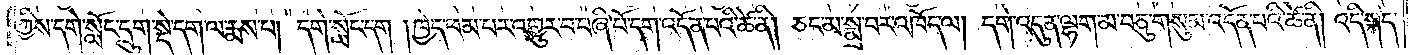ཀྱིས་དགེ་སློང་དྲུག་སྡེ་དག་ལ་རྨས་པ། དགེ་སློང་དག །ཁྱེད་ཕམ་པར་འགྱུར་བ་བཞི་པོ་དག་འདོན་པའི་ཚེ་ནི། ཅང་མ་སྨྲ་བར་འཁོད་ལ། དགེ་འདུན་ལྷག་མ་བཅུ་གསུམ་འདོན་པའི་ཚེ་ནི། འདི་སྐད་
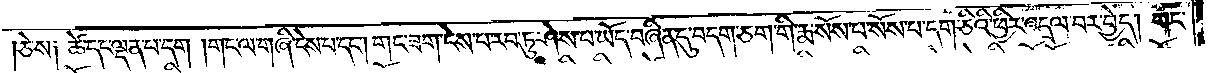ཅེས། ཚེ་དང་ལྡན་པ་དག །གང་ལ་གཞི་ངེས་པ་དང༌། གང་ཟག་ངེས་པ་རབ་ཏུ་ཤེས་པ་ཡོད་བཞིན་དུ་བདག་ཅག་གི་རྨ་སོས་པ་སོས་པ་དག་ཅིའི་ཕྱིར་འདྲལ་བར་བྱེད། གང་
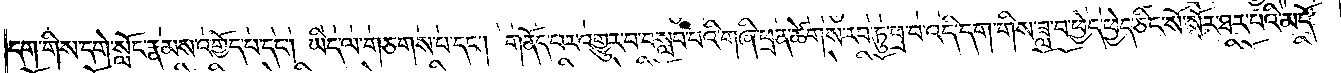དག་གིས་དགེ་སློང་རྣམས་འགྱོད་པ་དང༌། ཡིད་ལ་གཅགས་པ་དང༌། གནོད་པར་འགྱུར་བ་བསླབ་པའི་གཞི་ཕྲན་ཚེགས་རབ་ཏུ་ཕྲ་བ་འདི་དག་གིས་ཟླ་བ་ཕྱེད་ཕྱེད་ཅིང་སོ་སོར་ཐར་པའི་མདོ་
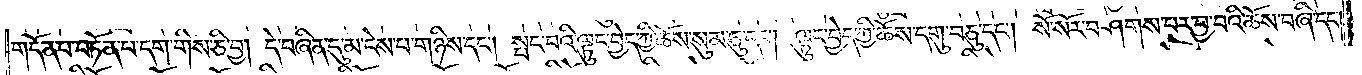གདོན་པ་བཏོན་པ་དག་གིས་ཅི་བྱ། དེ་བཞིན་དུ་མ་ངེས་པ་གཉིས་དང༌། སྤང་བའི་ལྟུང་བྱེད་ཀྱི་ཆོས་སུམ་ཅུ་དང༌། ལྟུང་བྱེད་ཀྱི་ཆོས་དགུ་བཅུ་དང༌། སོ་སོར་བཤགས་པར་བྱ་བའི་ཆོས་བཞི་དང་
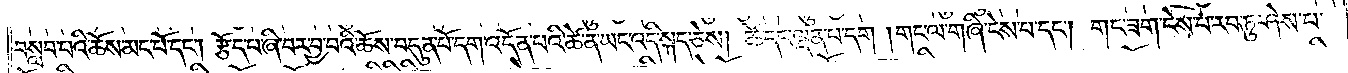བསླབ་པའི་ཆོས་མང་པོ་དང༌། རྩོད་པ་ཞི་བར་བྱ་བའི་ཆོས་བདུན་པོ་དག་འདོན་པའི་ཚེ་ན་ཡང་འདི་སྐད་ཅེས། ཚེ་དང་ལྡན་པ་དག །གང་ལ་གཞི་ངེས་པ་དང༌། གང་ཟག་ངེས་པ་རབ་ཏུ་ཤེས་པ་
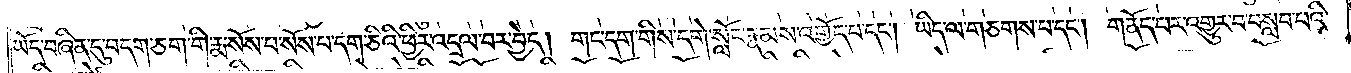ཡོད་བཞིན་དུ་བདག་ཅག་གི་རྨ་སོས་པ་སོས་པ་དག་ཅིའི་ཕྱིར་འདྲལ་བར་བྱེད། གང་དག་གིས་དགེ་སློང་རྣམས་འགྱོད་པ་དང༌། ཡིད་ལ་གཅགས་པ་དང༌། གནོད་པར་འགྱུར་བ་བསླབ་པའི་
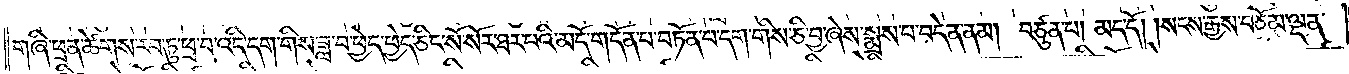གཞི་ཕྲན་ཚེགས་རབ་ཏུ་ཕྲ་བ་འདི་དག་གིས་ཟླ་བ་ཕྱེད་ཕྱེད་ཅིང་སོ་སོར་ཐར་པའི་མདོ་གདོན་པ་བཏོན་པ་དག་གིས་ཅི་བྱ་ཞེས་སྨྲས་པ་བདེན་ནམ། བཙུན་པ། མད་དོ། །སངས་རྒྱས་བཅོམ་ལྡན་
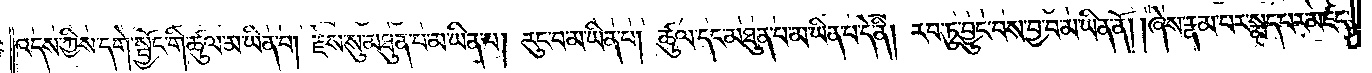འདས་ཀྱིས་དགེ་སྦྱོང་གི་ཚུལ་མ་ཡིན་པ། རྗེས་སུ་མཐུན་པ་མ་ཡིན་པ། རུང་བ་མ་ཡིན་པ། ཚུལ་དང་མཐུན་པ་མ་ཡིན་པ་དེ་ནི། རབ་ཏུ་བྱུང་བས་བྱ་བ་མ་ཡིན་ནོ། །ཞེས་རྣམ་པར་སྨད་པར་མཛད་
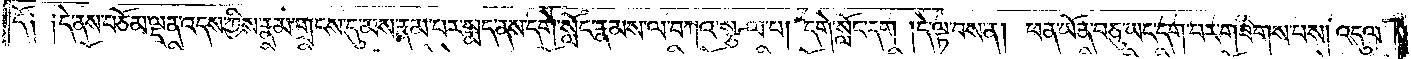དོ༑ ༑དེ་ནས་བཅོམ་ལྡན་འདས་ཀྱིས་རྣམ་གྲངས་དུ་མས་རྣམ་པར་སྨད་ནས་དགེ་སློང་རྣམས་ལ་བཀའ་སྩལ་པ། དགེ་སློང་དག །དེ་ལྟ་བས་ན། ཕན་ཡོན་བཅུ་ཡང་དག་པར་གཟིགས་པས། འདུལ་
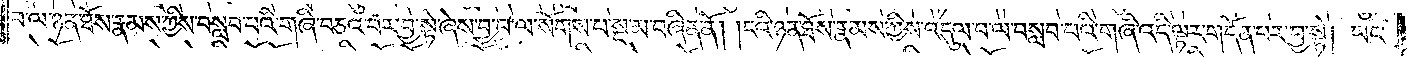བ་ལ་ཉན་ཐོས་རྣམས་ཀྱིས་བསླབ་པའི་གཞི་བཅའ་བར་བྱ་སྟེ་ཞེས་བྱ་བ་ལ་སོགས་པ་སྔ་མ་བཞིན་ནོ། །ངའི་ཉན་ཐོས་རྣམས་ཀྱིས་འདུལ་བ་ལ་བསླབ་པའི་གཞི་འདི་ལྟར་གདོན་པར་བྱ་སྟེ། ཡང་
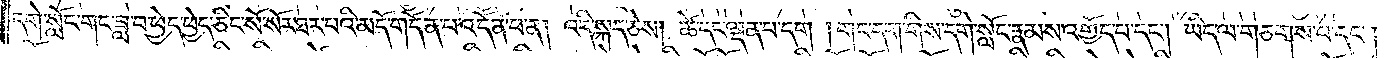དགེ་སློང་གང་ཟླ་བ་ཕྱེད་ཕྱེད་ཅིང་སོ་སོར་ཐར་པའི་མདོ་གདོན་པ་འདོན་པ་ན། འདི་སྐད་ཅེས། ཚེ་དང་ལྡན་པ་དག །གང་དག་གིས་དགེ་སློང་རྣམས་འགྱོད་པ་དང༌། ཡིད་ལ་གཅགས་པ་དང༌།
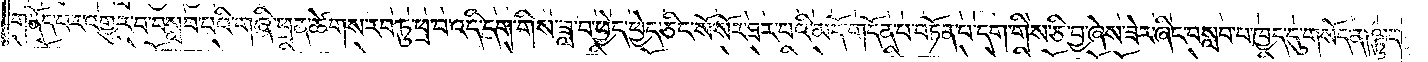གནོད་པར་འགྱུར་བ་བསླབ་པའི་གཞི་ཕྲན་ཚེགས་རབ་ཏུ་ཕྲ་བ་འདི་དག་གིས་ཟླ་བ་ཕྱེད་ཕྱེད་ཅིང་སོ་སོར་ཐར་པའི་མདོ་གདོན་པ་བཏོན་པ་དག་གིས་ཅི་བྱ་ཞེས་ཟེར་ཞིང་བསླབ་པ་ཁྱད་དུ་གསོད་ན། ལྟུང་
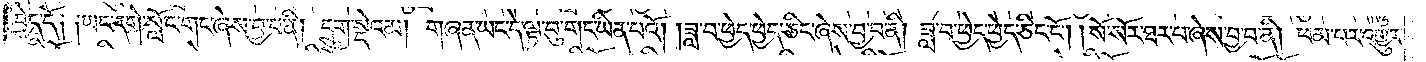བྱེད་དོ༑ ༑ཡང་དགེ་སློང་གང་ཞེས་བྱ་བ་ནི། དྲུག་སྡེའམ། གཞན་ཡང་དེ་ལྟ་བུ་གང་ཡིན་པའོ། །ཟླ་བ་ཕྱེད་ཕྱེད་ཅིང་ཞེས་བྱ་བ་ནི། ཟླ་བ་ཕྱེད་ཕྱེད་ཅིང་ངོ༌། །སོ་སོར་ཐར་པ་ཞེས་བྱ་བ་ནི། ཕམ་པར་འགྱུར་
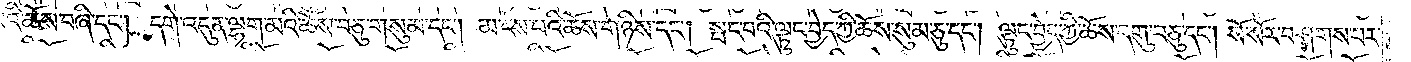འི་ཆོས་བཞི་དང༌། དགེ་འདུན་ལྷག་མའི་ཆོས་བཅུ་གསུམ་དང༌། མ་ངེས་པའི་ཆོས་གཉིས་དང༌། སྤང་བའི་ལྟུང་བྱེད་ཀྱི་ཆོས་སུམ་ཅུ་དང༌། ལྟུང་བྱེད་ཀྱི་ཆོས་དགུ་བཅུ་དང༌། སོ་སོར་བཤགས་པར་
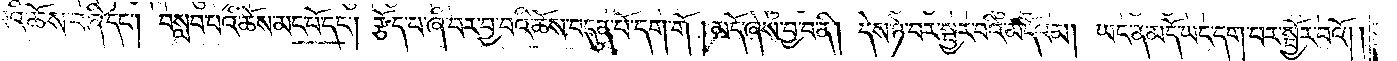འི་ཆོས་བཞི་དང༌། བསླབ་པའི་ཆོས་མང་པོ་དང༌། རྩོད་པ་ཞི་བར་བྱ་བའི་ཆོས་བདུན་པོ་དག་གོ །མདོ་ཞེས་བྱ་བ་ནི། དེས་ཉེ་བར་སྦྱར་བའི་མདོའམ། ཡང་ན་མདོ་ཡང་དག་པར་སྦྱོར་བའོ། །
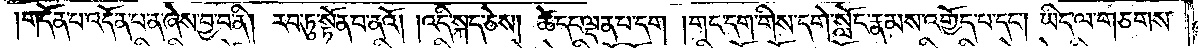གདོན་པ་འདོན་པ་ན་ཞེས་བྱ་བ་ནི། རབ་ཏུ་སྟོན་པ་ནའོ། །འདི་སྐད་ཅེས། ཚེ་དང་ལྡན་པ་དག །གང་དག་གིས་དགེ་སློང་རྣམས་འགྱོད་པ་དང༌། ཡིད་ལ་གཅགས་
